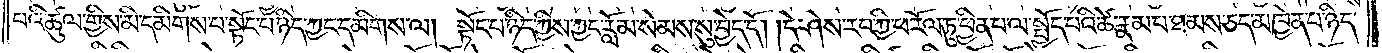པའི་ཚུལ་གྱིས་མི་དམིགས་པ་སྟོང་པ་ཉིད་ཀྱང་དམིགས་ལ། སྟོང་པ་ཉིད་ཀྱིས་ཀྱང་རློམ་སེམས་སུ་བྱེད་དོ། །དེ་ཤེས་རབ་ཀྱི་ཕ་རོལ་ཏུ་ཕྱིན་པ་ལ་སྤྱོད་པའི་ཚེ་རྣམ་པ་ཐམས་ཅད་མཁྱེན་པ་ཉིད་
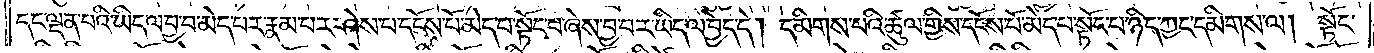དང་ལྡན་པའི་ཡིད་ལ་བྱ་བ་མེད་པར་རྣམ་པར་ཤེས་པ་དངོས་པོ་མེད་པ་སྟོང་པ་ཞེས་བྱ་བར་ཡིད་ལ་བྱེད་དེ། དམིགས་པའི་ཚུལ་གྱིས་དངོས་པོ་མེད་པ་སྟོང་པ་ཉིད་ཀྱང་དམིགས་ལ། སྟོང་
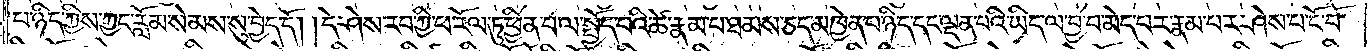པ་ཉིད་ཀྱིས་ཀྱང་རློམ་སེམས་སུ་བྱེད་དོ། །དེ་ཤེས་རབ་ཀྱི་ཕ་རོལ་ཏུ་ཕྱིན་པ་ལ་སྤྱོད་པའི་ཚེ་རྣམ་པ་ཐམས་ཅད་མཁྱེན་པ་ཉིད་དང་ལྡན་པའི་ཡིད་ལ་བྱ་བ་མེད་པར་རྣམ་པར་ཤེས་པ་ངོ་བོ་
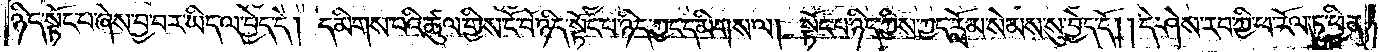ཉིད་སྟོང་པ་ཞེས་བྱ་བར་ཡིད་ལ་བྱེད་དེ། དམིགས་པའི་ཚུལ་གྱིས་ངོ་བོ་ཉིད་སྟོང་པ་ཉིད་ཀྱང་དམིགས་ལ། སྟོང་པ་ཉིད་ཀྱིས་ཀྱང་རློམ་སེམས་སུ་བྱེད་དོ། །དེ་ཤེས་རབ་ཀྱི་ཕ་རོལ་ཏུ་ཕྱིན་
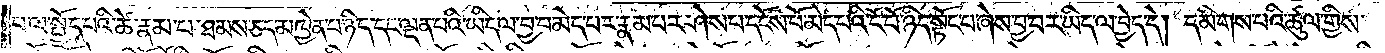པ་ལ་སྤྱོད་པའི་ཚེ་རྣམ་པ་ཐམས་ཅད་མཁྱེན་པ་ཉིད་དང་ལྡན་པའི་ཡིད་ལ་བྱ་བ་མེད་པར་རྣམ་པར་ཤེས་པ་དངོས་པོ་མེད་པའི་ངོ་བོ་ཉིད་སྟོང་པ་ཞེས་བྱ་བར་ཡིད་ལ་བྱེད་དེ། དམིགས་པའི་ཚུལ་གྱིས་
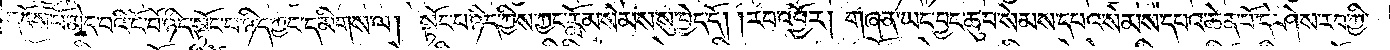དངོས་པོ་མེད་པའི་ངོ་བོ་ཉིད་སྟོང་པ་ཉིད་ཀྱང་དམིགས་ལ། སྟོང་པ་ཉིད་ཀྱིས་ཀྱང་རློམ་སེམས་སུ་བྱེད་དོ། །རབ་འབྱོར། གཞན་ཡང་བྱང་ཆུབ་སེམས་དཔའ་སེམས་དཔའ་ཆེན་པོ་དེ་ཤེས་རབ་ཀྱི་
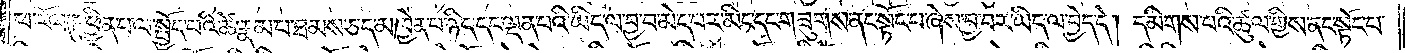ཕ་རོལ་ཏུ་ཕྱིན་པ་ལ་སྤྱོད་པའི་ཚེ་རྣམ་པ་ཐམས་ཅད་མཁྱེན་པ་ཉིད་དང་ལྡན་པའི་ཡིད་ལ་བྱ་བ་མེད་པར་མིང་དང་གཟུགས་ནང་སྟོང་པ་ཞེས་བྱ་བར་ཡིད་ལ་བྱེད་དེ། དམིགས་པའི་ཚུལ་གྱིས་ནང་སྟོང་པ་
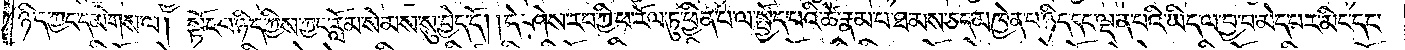ཉིད་ཀྱང་དམིགས་ལ། སྟོང་པ་ཉིད་ཀྱིས་ཀྱང་རློམ་སེམས་སུ་བྱེད་དོ། །དེ་ཤེས་རབ་ཀྱི་ཕ་རོལ་ཏུ་ཕྱིན་པ་ལ་སྤྱོད་པའི་ཚེ་རྣམ་པ་ཐམས་ཅད་མཁྱེན་པ་ཉིད་དང་ལྡན་པའི་ཡིད་ལ་བྱ་བ་མེད་པར་མིང་དང་
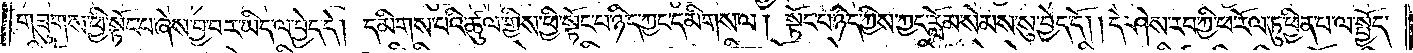གཟུགས་ཕྱི་སྟོང་པ་ཞེས་བྱ་བར་ཡིད་ལ་བྱེད་དེ། དམིགས་པའི་ཚུལ་གྱིས་ཕྱི་སྟོང་པ་ཉིད་ཀྱང་དམིགས་ལ། སྟོང་པ་ཉིད་ཀྱིས་ཀྱང་རློམ་སེམས་སུ་བྱེད་དོ། །དེ་ཤེས་རབ་ཀྱི་ཕ་རོལ་ཏུ་ཕྱིན་པ་ལ་སྤྱོད་
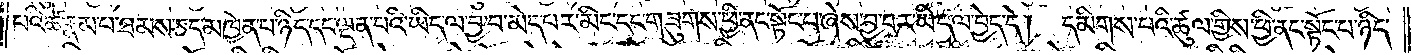པའི་ཚེ་རྣམ་པ་ཐམས་ཅད་མཁྱེན་པ་ཉིད་དང་ལྡན་པའི་ཡིད་ལ་བྱ་བ་མེད་པར་མིང་དང་གཟུགས་ཕྱི་ནང་སྟོང་པ་ཞེས་བྱ་བར་ཡིད་ལ་བྱེད་དེ། དམིགས་པའི་ཚུལ་གྱིས་ཕྱི་ནང་སྟོང་པ་ཉིད་
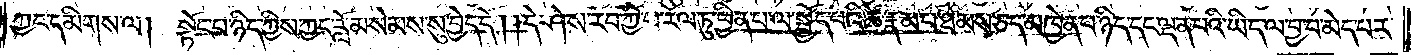ཀྱང་དམིགས་ལ། སྟོང་པ་ཉིད་ཀྱིས་ཀྱང་རློམ་སེམས་སུ་བྱེད་དོ། །དེ་ཤེས་རབ་ཀྱི་ཕ་རོལ་ཏུ་ཕྱིན་པ་ལ་སྤྱོད་པའི་ཚེ་རྣམ་པ་ཐམས་ཅད་མཁྱེན་པ་ཉིད་དང་ལྡན་པའི་ཡིད་ལ་བྱ་བ་མེད་པར་
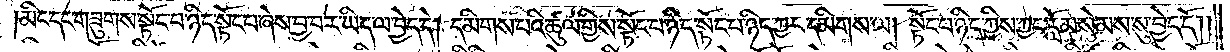མིང་དང་གཟུགས་སྟོང་པ་ཉིད་སྟོང་པ་ཞེས་བྱ་བར་ཡིད་ལ་བྱེད་དེ། དམིགས་པའི་ཚུལ་གྱིས་སྟོང་པ་ཉིད་སྟོང་པ་ཉིད་ཀྱང་དམིགས་ལ། སྟོང་པ་ཉིད་ཀྱིས་ཀྱང་རློམ་སེམས་སུ་བྱེད་དོ། །
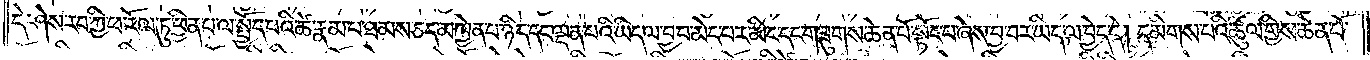དེ་ཤེས་རབ་ཀྱི་ཕ་རོལ་ཏུ་ཕྱིན་པ་ལ་སྤྱོད་པའི་ཚེ་རྣམ་པ་ཐམས་ཅད་མཁྱེན་པ་ཉིད་དང་ལྡན་པའི་ཡིད་ལ་བྱ་བ་མེད་པར་མིང་དང་གཟུགས་ཆེན་པོ་སྟོང་པ་ཞེས་བྱ་བར་ཡིད་ལ་བྱེད་དེ། དམིགས་པའི་ཚུལ་གྱིས་ཆེན་པོ་
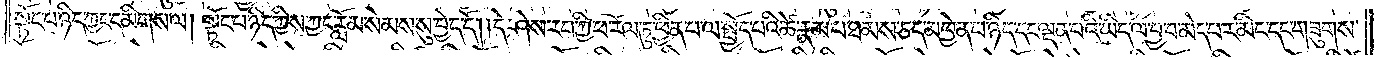སྟོང་པ་ཉིད་ཀྱང་དམིགས་ལ། སྟོང་པ་ཉིད་ཀྱིས་ཀྱང་རློམ་སེམས་སུ་བྱེད་དོ། །དེ་ཤེས་རབ་ཀྱི་ཕ་རོལ་ཏུ་ཕྱིན་པ་ལ་སྤྱོད་པའི་ཚེ་རྣམ་པ་ཐམས་ཅད་མཁྱེན་པ་ཉིད་དང་ལྡན་པའི་ཡིད་ལ་བྱ་བ་མེད་པར་མིང་དང་གཟུགས་
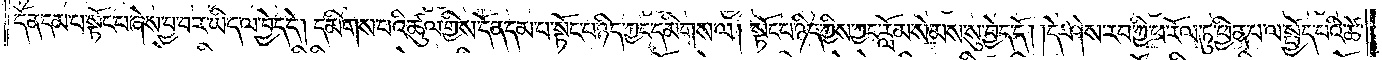དོན་དམ་པ་སྟོང་པ་ཞེས་བྱ་བར་ཡིད་ལ་བྱེད་དེ། དམིགས་པའི་ཚུལ་གྱིས་དོན་དམ་པ་སྟོང་པ་ཉིད་ཀྱང་དམིགས་ལ། སྟོང་པ་ཉིད་ཀྱིས་ཀྱང་རློམ་སེམས་སུ་བྱེད་དོ། །དེ་ཤེས་རབ་ཀྱི་ཕ་རོལ་ཏུ་ཕྱིན་པ་ལ་སྤྱོད་པའི་ཚེ་
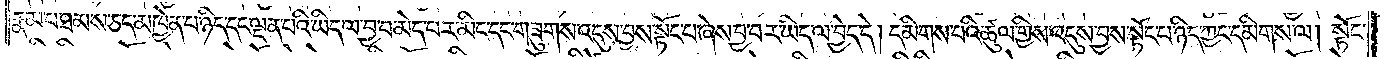རྣམ་པ་ཐམས་ཅད་མཁྱེན་པ་ཉིད་དང་ལྡན་པའི་ཡིད་ལ་བྱ་བ་མེད་པར་མིང་དང་གཟུགས་འདུས་བྱས་སྟོང་པ་ཞེས་བྱ་བར་ཡིད་ལ་བྱེད་དེ། དམིགས་པའི་ཚུལ་གྱིས་འདུས་བྱས་སྟོང་པ་ཉིད་ཀྱང་དམིགས་ལ། སྟོང་
